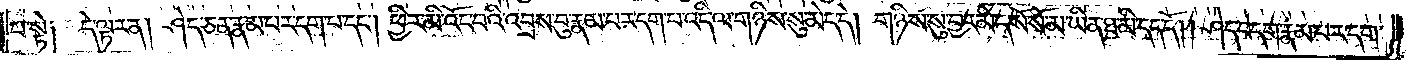པ་སྟེ། དེ་ལྟར་ན། ཤེད་ཅན་རྣམ་པར་དག་པ་དང༌། ཕྱིར་མི་འོང་བའི་འབྲས་བུ་རྣམ་པར་དག་པ་འདི་ལ་གཉིས་སུ་མེད་དེ། གཉིས་སུ་བྱར་མེད་སོ་སོ་མ་ཡིན་ཐ་མི་དད་དོ། །ཤེད་བདག་རྣམ་པར་དག་
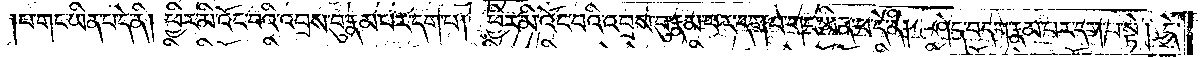པ་གང་ཡིན་པ་དེ་ནི། ཕྱིར་མི་འོང་བའི་འབྲས་བུ་རྣམ་པར་དག་པ། ཕྱིར་མི་འོང་བའི་འབྲས་བུ་རྣམ་པར་དག་པ་གང་ཡིན་པ་དེ་ནི། ཤེད་བདག་རྣམ་པར་དག་པ་སྟེ། དེ་
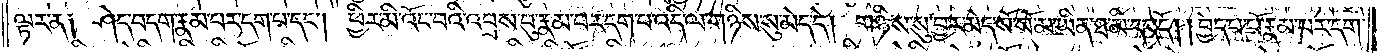ལྟར་ན། ཤེད་བདག་རྣམ་པར་དག་པ་དང༌། ཕྱིར་མི་འོང་བའི་འབྲས་བུ་རྣམ་པར་དག་པ་འདི་ལ་གཉིས་སུ་མེད་དེ། གཉིས་སུ་བྱར་མེད་སོ་སོ་མ་ཡིན་ཐ་མི་དད་དོ། །བྱེད་པ་པོ་རྣམ་པར་དག་
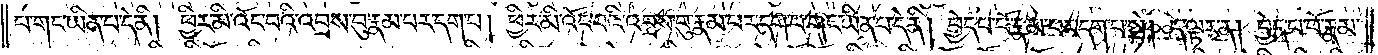པ་གང་ཡིན་པ་དེ་ནི། ཕྱིར་མི་འོང་བའི་འབྲས་བུ་རྣམ་པར་དག་པ། ཕྱིར་མི་འོང་བའི་འབྲས་བུ་རྣམ་པར་དག་པ་གང་ཡིན་པ་དེ་ནི། བྱེད་པ་པོ་རྣམ་པར་དག་པ་སྟེ། དེ་ལྟར་ན། བྱེད་པ་པོ་རྣམ་
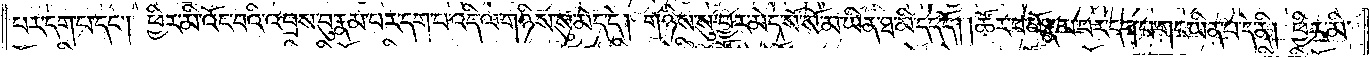པར་དག་པ་དང༌། ཕྱིར་མི་འོང་བའི་འབྲས་བུ་རྣམ་པར་དག་པ་འདི་ལ་གཉིས་སུ་མེད་དེ། གཉིས་སུ་བྱར་མེད་སོ་སོ་མ་ཡིན་ཐ་མི་དད་དོ། །ཚོར་བ་པོ་རྣམ་པར་དག་པ་གང་ཡིན་པ་དེ་ནི། ཕྱིར་མི་
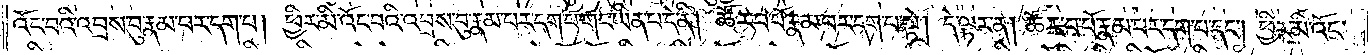འོང་བའི་འབྲས་བུ་རྣམ་པར་དག་པ། ཕྱིར་མི་འོང་བའི་འབྲས་བུ་རྣམ་པར་དག་པ་གང་ཡིན་པ་དེ་ནི། ཚོར་བ་པོ་རྣམ་པར་དག་པ་སྟེ། དེ་ལྟར་ན། ཚོར་བ་པོ་རྣམ་པར་དག་པ་དང༌། ཕྱིར་མི་འོང་
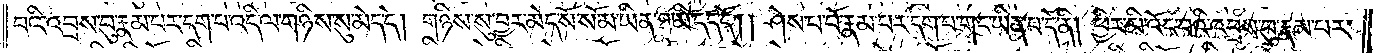བའི་འབྲས་བུ་རྣམ་པར་དག་པ་འདི་ལ་གཉིས་སུ་མེད་དེ། གཉིས་སུ་བྱར་མེད་སོ་སོ་མ་ཡིན་ཐ་མི་དད་དོ། །ཤེས་པ་པོ་རྣམ་པར་དག་པ་གང་ཡིན་པ་དེ་ནི། ཕྱིར་མི་འོང་བའི་འབྲས་བུ་རྣམ་པར་
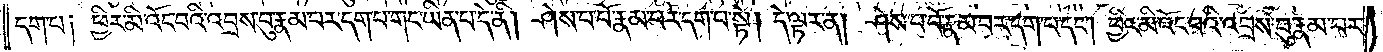དག་པ། ཕྱིར་མི་འོང་བའི་འབྲས་བུ་རྣམ་པར་དག་པ་གང་ཡིན་པ་དེ་ནི། ཤེས་པ་པོ་རྣམ་པར་དག་པ་སྟེ། དེ་ལྟར་ན། ཤེས་པ་པོ་རྣམ་པར་དག་པ་དང༌། ཕྱིར་མི་འོང་བའི་འབྲས་བུ་རྣམ་པར་
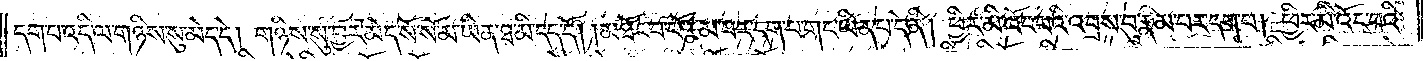དག་པ་འདི་ལ་གཉིས་སུ་མེད་དེ། གཉིས་སུ་བྱར་མེད་སོ་སོ་མ་ཡིན་ཐ་མི་དད་དོ། །མཐོང་བ་པོ་རྣམ་པར་དག་པ་གང་ཡིན་པ་དེ་ནི། ཕྱིར་མི་འོང་བའི་འབྲས་བུ་རྣམ་པར་དག་པ། ཕྱིར་མི་འོང་བའི་
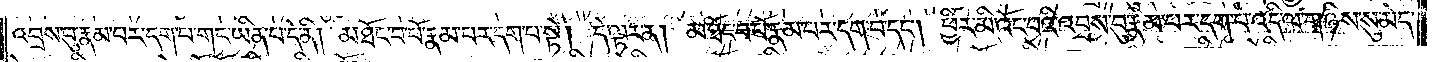འབྲས་བུ་རྣམ་པར་དག་པ་གང་ཡིན་པ་དེ་ནི། མཐོང་པ་པོ་རྣམ་པར་དག་པ་སྟེ། དེ་ལྟར་ན། མཐོང་བ་པོ་རྣམ་པར་དག་པ་དང༌། ཕྱིར་མི་འོང་བའི་འབྲས་བུ་རྣམ་པར་དག་པ་འདི་ལ་གཉིས་སུ་མེད་
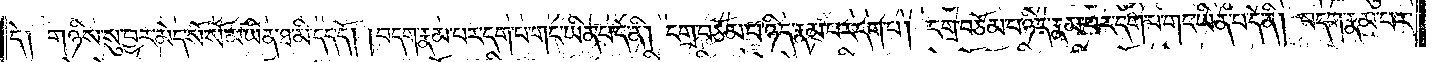དེ། གཉིས་སུ་བྱར་མེད་སོ་སོ་མ་ཡིན་པ་ཐ་མི་དད་དོ། །བདག་རྣམ་པར་དག་པ་གང་ཡིན་པ་དེ་ནི། དགྲ་བཅོམ་པ་ཉིད་རྣམ་པར་དག་པ། དགྲ་བཅོམ་པ་ཉིད་རྣམ་པར་དག་པ་གང་ཡིན་པ་དེ་ནི། བདག་རྣམ་པར་
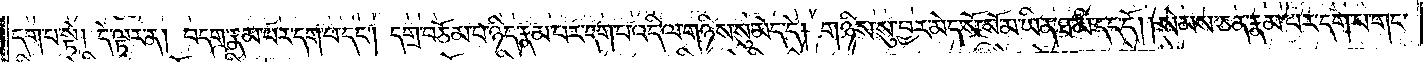དག་པ་སྟེ། དེ་ལྟར་ན། བདག་རྣམ་པར་དག་པ་དང༌། དགྲ་བཅོམ་པ་ཉིད་རྣམ་པར་དག་པ་འདི་ལ་གཉིས་སུ་མེད་དེ། གཉིས་སུ་བྱར་མེད་སོ་སོ་མ་ཡིན་ཐ་མི་དད་དོ། །སེམས་ཅན་རྣམ་པར་དག་པ་གང་
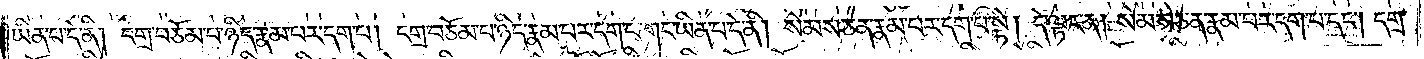ཡིན་པ་དེ་ནི། དགྲ་བཅོམ་པ་ཉིད་རྣམ་པར་དག་པ། དགྲ་བཅོམ་པ་ཉིད་རྣམ་པར་དག་པ་གང་ཡིན་པ་དེ་ནི། སེམས་ཅན་རྣམ་པར་དག་པ་སྟེ། དེ་ལྟར་ན། སེམས་ཅན་རྣམ་པར་དག་པ་དང༌། དགྲ་
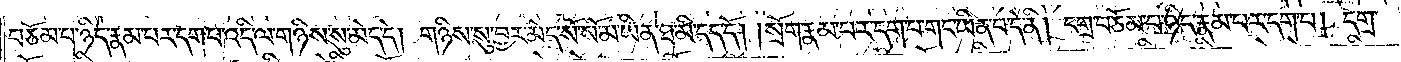བཅོམ་པ་ཉིད་རྣམ་པར་དག་པ་འདི་ལ་གཉིས་སུ་མེད་དེ། གཉིས་སུ་བྱར་མེད་སོ་སོ་མ་ཡིན་ཐ་མི་དད་དོ། །སྲོག་རྣམ་པར་དག་པ་གང་ཡིན་པ་དེ་ནི། དགྲ་བཅོམ་པ་ཉིད་རྣམ་པར་དག་པ། དགྲ་
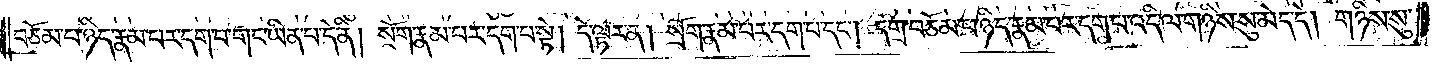བཅོམ་པ་ཉིད་རྣམ་པར་དག་པ་གང་ཡིན་པ་དེ་ནི། སྲོག་རྣམ་པར་དག་པ་སྟེ། དེ་ལྟར་ན། སྲོག་རྣམ་པར་དག་པ་དང༌། དགྲ་བཅོམ་པ་ཉིད་རྣམ་པར་དག་པ་འདི་ལ་གཉིས་སུ་མེད་དེ། གཉིས་སུ་
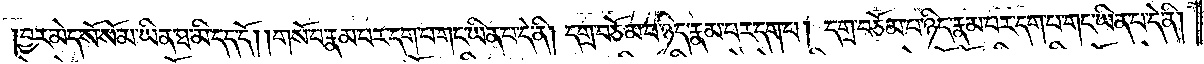བྱར་མེད་སོ་སོ་མ་ཡིན་ཐ་མི་དད་དོ། །གསོ་བ་རྣམ་པར་དག་པ་གང་ཡིན་པ་དེ་ནི། དགྲ་བཅོམ་པ་ཉིད་རྣམ་པར་དག་པ། དགྲ་བཅོམ་པ་ཉིད་རྣམ་པར་དག་པ་གང་ཡིན་པ་དེ་ནི།
